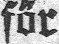för
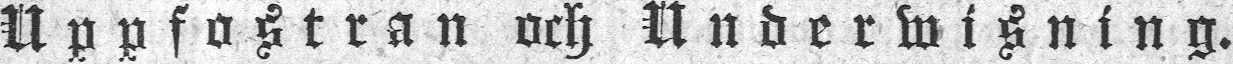Uppfostran och Underwisning.
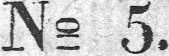N:o 5.
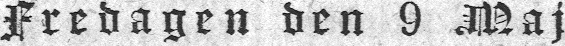Fredagen den 9 Maj
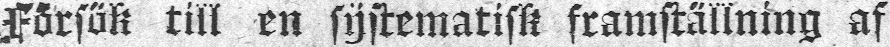Försök till en systematisk framställning af
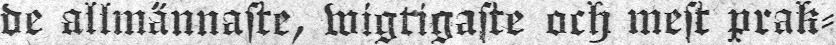de allmännaste, wigtigaste och mest prak-
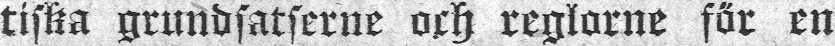tiska grundsatserne och reglorne för en
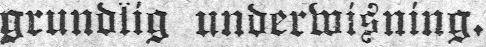grundlig underwisning.
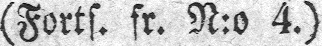(Forts. fr. N:o 4.)
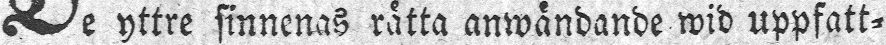De yttre sinnenas rätta anwändande wid uppfatt-
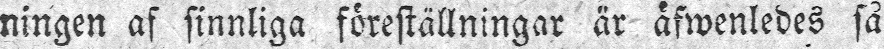ningen af sinnliga föreställningar är äfwenledes så
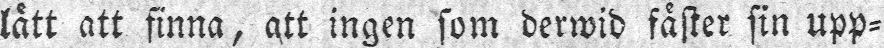lätt att finna, att ingen som derwid fäster sin upp-
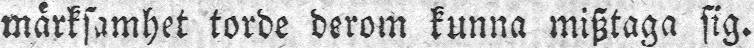märksamhet torde derom kunna misztaga sig.
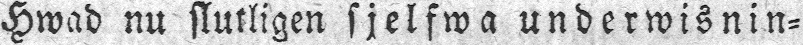Hwad nu slutligen sjelfwa underwisnin-
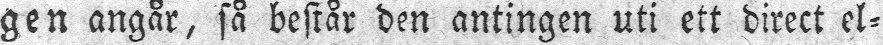gen angår, så består den antingen uti ett direct el-
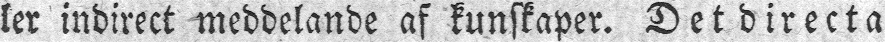ler indirect meddelande af kunskaper. Det directa
